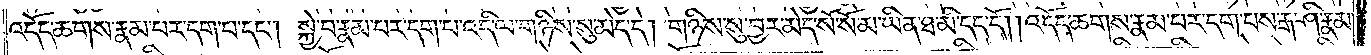འདོད་ཆགས་རྣམ་པར་དག་པ་དང༌། སྐྱེ་བ་རྣམ་པར་དག་པ་འདི་ལ་གཉིས་སུ་མེད་དེ། གཉིས་སུ་བྱར་མེད་སོ་སོ་མ་ཡིན་ཐ་མི་དད་དོ། །འདོད་ཆགས་རྣམ་པར་དག་པས་རྒ་ཤི་རྣམ་
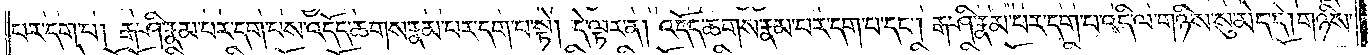པར་དག་པ། རྒ་ཤི་རྣམ་པར་དག་པས་འདོད་ཆགས་རྣམ་པར་དག་པ་སྟེ། དེ་ལྟར་ན། འདོད་ཆགས་རྣམ་པར་དག་པ་དང༌། རྒ་ཤི་རྣམ་པར་དག་པ་འདི་ལ་གཉིས་སུ་མེད་དེ། གཉིས་
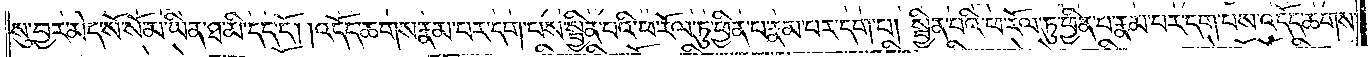སུ་བྱར་མེད་སོ་སོ་མ་ཡིན་ཐ་མི་དད་དོ། །འདོད་ཆགས་རྣམ་པར་དག་པས་སྦྱིན་པའི་ཕ་རོལ་ཏུ་ཕྱིན་པ་རྣམ་པར་དག་པ། སྦྱིན་པའི་ཕ་རོལ་ཏུ་ཕྱིན་པ་རྣམ་པར་དག་པས་འདོད་ཆགས་
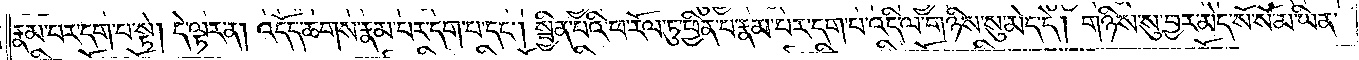རྣམ་པར་དག་པ་སྟེ། དེ་ལྟར་ན། འདོད་ཆགས་རྣམ་པར་དག་པ་དང༌། སྦྱིན་པའི་ཕ་རོལ་ཏུ་ཕྱིན་པ་རྣམ་པར་དག་པ་འདི་ལ་གཉིས་སུ་མེད་དེ། གཉིས་སུ་བྱར་མེད་སོ་སོ་མ་ཡིན་
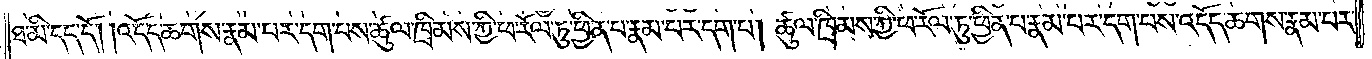ཐ་མི་དད་དོ། །འདོད་ཆགས་རྣམ་པར་དག་པས་ཚུལ་ཁྲིམས་ཀྱི་ཕ་རོལ་ཏུ་ཕྱིན་པ་རྣམ་པར་དག་པ། ཚུལ་ཁྲིམས་ཀྱི་ཕ་རོལ་ཏུ་ཕྱིན་པ་རྣམ་པར་དག་པས་འདོད་ཆགས་རྣམ་པར་
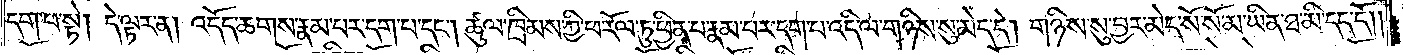དག་པ་སྟེ། དེ་ལྟར་ན། འདོད་ཆགས་རྣམ་པར་དག་པ་དང༌། ཚུལ་ཁྲིམས་ཀྱི་ཕ་རོལ་ཏུ་ཕྱིན་པ་རྣམ་པར་དག་པ་འདི་ལ་གཉིས་སུ་མེད་དེ། གཉིས་སུ་བྱར་མེད་སོ་སོ་མ་ཡིན་ཐ་མི་དད་དོ། །
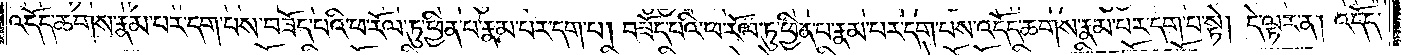འདོད་ཆགས་རྣམ་པར་དག་པས་བཟོད་པའི་ཕ་རོལ་ཏུ་ཕྱིན་པ་རྣམ་པར་དག་པ། བཟོད་པའི་ཕ་རོལ་ཏུ་ཕྱིན་པ་རྣམ་པར་དག་པས་འདོད་ཆགས་རྣམ་པར་དག་པ་སྟེ། དེ་ལྟར་ན། འདོད་
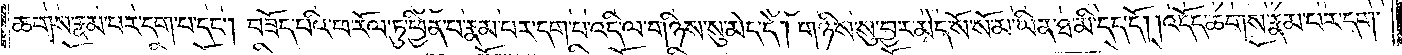ཆགས་རྣམ་པར་དག་པ་དང༌། བཟོད་པའི་ཕ་རོལ་ཏུ་ཕྱིན་པ་རྣམ་པར་དག་པ་འདི་ལ་གཉིས་སུ་མེད་དེ། གཉིས་སུ་བྱར་མེད་སོ་སོ་མ་ཡིན་ཐ་མི་དད་དོ། །འདོད་ཆགས་རྣམ་པར་དག་
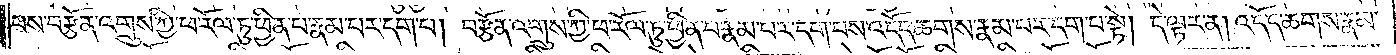པས་བརྩོན་འགྲུས་ཀྱི་ཕ་རོལ་ཏུ་ཕྱིན་པ་རྣམ་པར་དག་པ། བརྩོན་འགྲུས་ཀྱི་ཕ་རོལ་ཏུ་ཕྱིན་པ་རྣམ་པར་དག་པས་འདོད་ཆགས་རྣམ་པར་དག་པ་སྟེ། དེ་ལྟར་ན། འདོད་ཆགས་རྣམ་
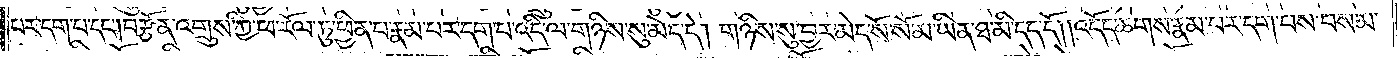པར་དག་པ་དང༌། བརྩོན་འགྲུས་ཀྱི་ཕ་རོལ་ཏུ་ཕྱིན་པ་རྣམ་པར་དག་པ་འདི་ལ་གཉིས་སུ་མེད་དེ། གཉིས་སུ་བྱར་མེད་སོ་སོ་མ་ཡིན་ཐ་མི་དད་དོ། །འདོད་ཆགས་རྣམ་པར་དག་པས་བསམ་
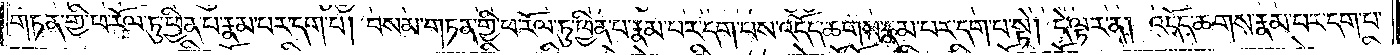གཏན་གྱི་ཕ་རོལ་ཏུ་ཕྱིན་པ་རྣམ་པར་དག་པ། བསམ་གཏན་གྱི་ཕ་རོལ་ཏུ་ཕྱིན་པ་རྣམ་པར་དག་པས་འདོད་ཆགས་རྣམ་པར་དག་པ་སྟེ། དེ་ལྟར་ན། འདོད་ཆགས་རྣམ་པར་དག་པ་
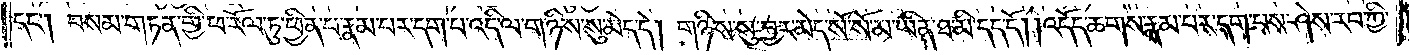དང༌། བསམ་གཏན་གྱི་ཕ་རོལ་ཏུ་ཕྱིན་པ་རྣམ་པར་དག་པ་འདི་ལ་གཉིས་སུ་མེད་དེ། གཉིས་སུ་བྱར་མེད་སོ་སོ་མ་ཡིན་ཐ་མི་དད་དོ། །འདོད་ཆགས་རྣམ་པར་དག་པས་ཤེས་རབ་ཀྱི་
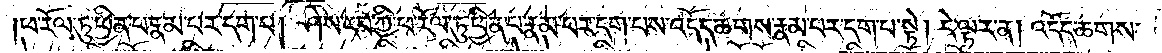ཕ་རོལ་ཏུ་ཕྱིན་པ་རྣམ་པར་དག་པ། ཤེས་རབ་ཀྱི་ཕ་རོལ་ཏུ་ཕྱིན་པ་རྣམ་པར་དག་པས་འདོད་ཆགས་རྣམ་པར་དག་པ་སྟེ། དེ་ལྟར་ན། འདོད་ཆགས་
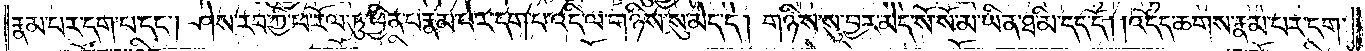རྣམ་པར་དག་པ་དང༌། ཤེས་རབ་ཀྱི་ཕ་རོལ་ཏུ་ཕྱིན་པ་རྣམ་པར་དག་པ་འདི་ལ་གཉིས་སུ་མེད་དེ། གཉིས་སུ་བྱར་མེད་སོ་སོ་མ་ཡིན་ཐ་མི་དད་དོ། །འདོད་ཆགས་རྣམ་པར་དག་
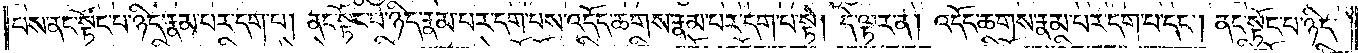པས་ནང་སྟོང་པ་ཉིད་རྣམ་པར་དག་པ། ནང་སྟོང་པ་ཉིད་རྣམ་པར་དག་པས་འདོད་ཆགས་རྣམ་པར་དག་པ་སྟེ། དེ་ལྟར་ན། འདོད་ཆགས་རྣམ་པར་དག་པ་དང༌། ནང་སྟོང་པ་ཉིད་
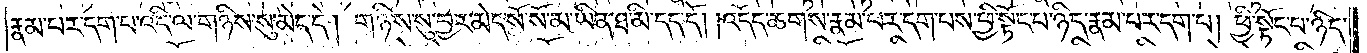རྣམ་པར་དག་པ་འདི་ལ་གཉིས་སུ་མེད་དེ། གཉིས་སུ་བྱར་མེད་སོ་སོ་མ་ཡིན་ཐ་མི་དད་དོ། །འདོད་ཆགས་རྣམ་པར་དག་པས་ཕྱི་སྟོང་པ་ཉིད་རྣམ་པར་དག་པ། ཕྱི་སྟོང་པ་ཉིད་
